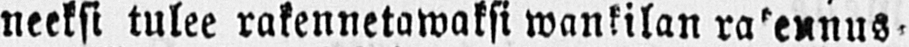neeksi tulee rakennetawaksi wankilan rakennus-
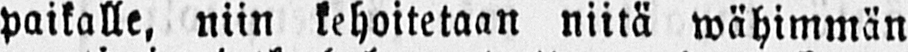paikalle, niin kehoitetaan niitä wähimmän
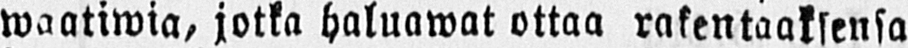waatiwia, jotka haluawat ottaa rakentaaksensa
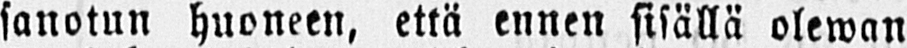sanotun huoneen, että ennen sisällä olewan
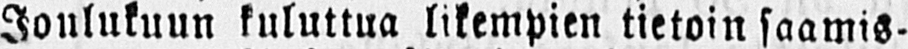Joulukuun kuluttua likempien tietoin saamis-
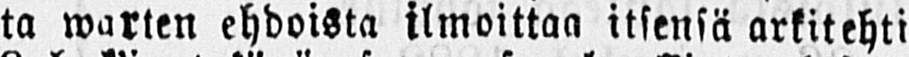ta warten ehdoista ilmoittaa itsensä arkitehti
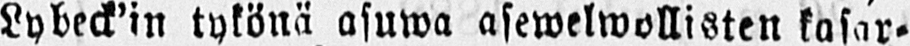Lybeck'in tykönä asuwa asewelwollisten kasar-
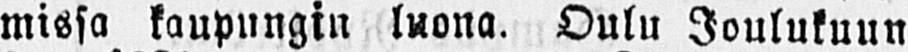missa kaupungin luona. Oulu Joulukuun
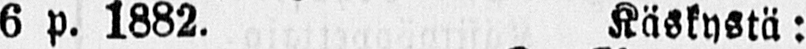6 p. 1882. Käskystä:
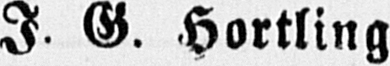I G. Hortling
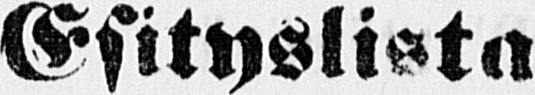Esityslista
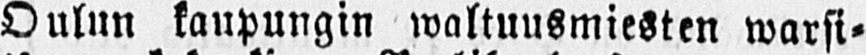Oulun kaupungin waltuusmiesten warsi-
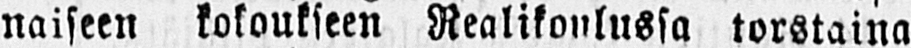naiseen kokoukseen Realikoulussa torstaina
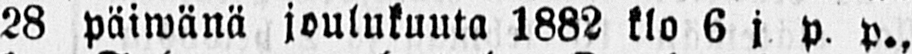28 päiwänä joulukuuta 1882 klo 6 j p. p.,
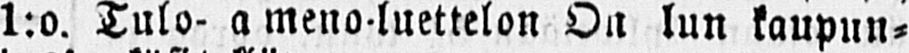1:o. Tulo- a meno-luettelon On lun kaupun-
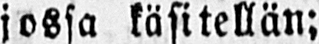jossa käsitellän;
